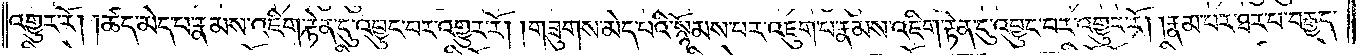འགྱུར་རོ། །ཚད་མེད་པ་རྣམས་འཇིག་རྟེན་དུ་འབྱུང་བར་འགྱུར་རོ། །གཟུགས་མེད་པའི་སྙོམས་པར་འཇུག་བ་རྣམས་འཇིག་རྟེན་དུ་འབྱུང་བར་འགྱུར་རོ། རྣམ་པར་ཐར་པ་བརྒྱད་
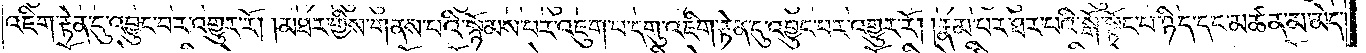འཇིག་རྟེན་དུ་འབྱུང་བར་འགྱུར་རོ། །མཐར་གྱིས་གནས་པའི་སྙོམས་པར་འཇུག་བ་དགུ་འཇིག་རྟེན་དུ་འབྱུང་བར་འགྱུར་རོ། །རྣམ་པར་ཐར་བའི་སྒོ་སྟོང་བ་ཉིད་དང་མཚན་མ་མེད་
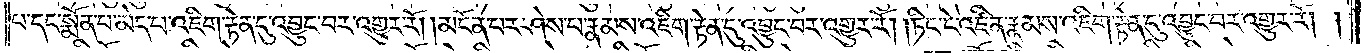པ་དང་སྨོན་པ་མེད་པ་འཇིག་རྟེན་དུ་འབྱུང་བར་འགྱུར་རོ། །མངོན་པར་ཤེས་པ་རྣམས་འཇིག་རྟེན་དུ་འབྱུང་བར་འགྱུར་རོ། །ཏིང་ངེ་འཛིན་རྣམས་འཇིག་རྟེན་དུ་འབྱུང་བར་འགྱུར་རོ། །
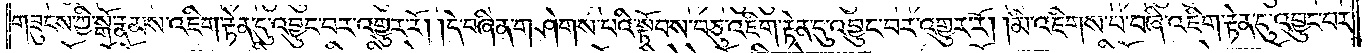གཟུངས་ཀྱི་སྒོ་རྣམས་འཇིག་རྟེན་དུ་འབྱུང་བར་འགྱུར་རོ། །དེ་བཞིན་གཤེགས་བའི་སྟོབས་བཅུ་འཇིག་རྟེན་དུ་འབྱུང་བར་འགྱུར་རོ། །མི་འཇིགས་པ་བཞི་འཇིག་རྟེན་དུ་འབྱུང་བར་
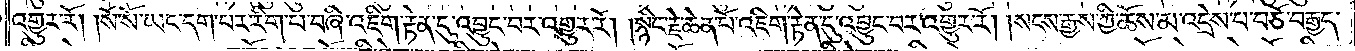འགྱུར་རོ། །སོ་སོ་ཡང་དག་པར་རིག་པ་བཞི་འཇིག་རྟེན་དུ་འབྱུང་བར་འགྱུར་རོ། །སྙིང་རྗེ་ཆེན་པོ་འཇིག་རྟེན་དུ་འབྱུང་བར་འགྱུར་རོ། སངས་རྒྱས་ཀྱི་ཆོས་མ་འདྲེས་པ་བཅོ་བརྒྱད་
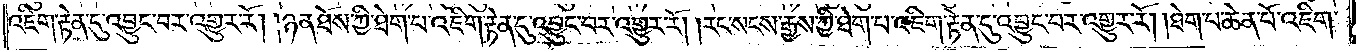འཇིག་རྟེན་དུ་འབྱུང་བར་འགྱུར་རོ། །ཉན་ཐོས་ཀྱི་ཐེག་པ་འཇིག་རྟེན་དུ་འབྱུང་བར་འགྱུར་རོ། །རང་སངས་རྒྱས་ཀྱི་ཐེག་པ་འཇིག་རྟེན་དུ་འབྱུང་བར་འགྱུར་རོ། །ཐེག་པ་ཆེན་པོ་འཇིག་
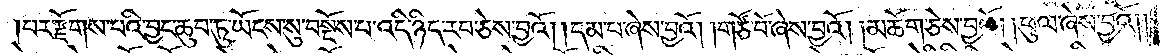པར་རྫོགས་པའི་བྱང་ཆུབ་ཏུ་ཡོངས་སུ་བསྔོས་པ་འདི་ཉིད་རབ་ཅེས་བྱའོ། །དམ་པ་ཞེས་བྱའོ། །གཙོ་བོ་ཞེས་བྱའོ། །མཆོག་ཅེས་བྱའོ། །ཕུལ་ཞེས་བྱའོ། །
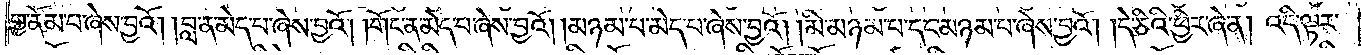གྱ་ནོམ་པ་ཞེས་བྱའོ། །བླ་ན་མེད་པ་ཞེས་བྱའོ། །གོང་ན་མེད་པ་ཞེས་བྱའོ། །མཉམ་པ་མེད་པ་ཞེས་བྱའོ། །མི་མཉམ་པ་དང་མཉམ་པ་ཞེས་བྱའོ། །དེ་ཅིའི་ཕྱིར་ཞེ་ན། འདི་ལྟར་
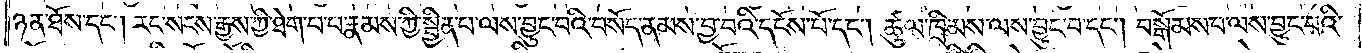ཉན་ཐོས་དང༌། རང་སངས་རྒྱས་ཀྱི་ཐེག་པ་པ་རྣམས་ཀྱི་སྦྱིན་པ་ལས་བྱུང་བའི་བསོད་ནམས་བྱ་བའི་དངོས་པོ་དང༌། ཚུལ་ཁྲིམས་ལས་བྱུང་བ་དང༌། བསྒོམས་བ་ལས་བྱུང་བའི་
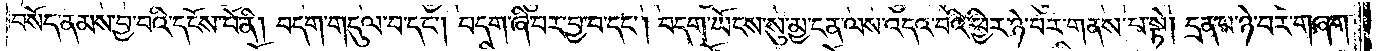བསོད་ནམས་བྱ་བའི་དངོས་པོ་ནི། བདག་གདུལ་བ་དང༌། བདག་ཞི་བར་བྱ་བ་དང༌། བདག་ཡོངས་སུ་མྱ་ངན་ལས་འདའ་བའི་ཕྱིར་ཉེ་བར་གནས་པ་སྟེ། དྲན་པ་ཉེ་བར་གཞག་
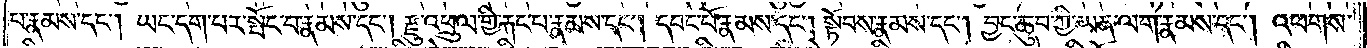པ་རྣམས་དང༌། ཡང་དག་པར་སྤོང་བ་རྣམས་དང༌། རྫུ་འཕྲུལ་གྱི་རྐང་པ་རྣམས་དང༌། དབང་པོ་རྣམས་དང༌། སྟོབས་རྣམས་དང༌། བྱང་ཆུབ་ཀྱི་ཡན་ལག་རྣམས་དང༌། འཕགས་
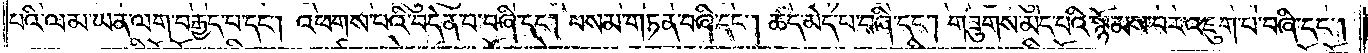པའི་ལམ་ཡན་ལག་བརྒྱད་པ་དང༌། འཕགས་པའི་བདེན་པ་བཞི་དང༌། བསམ་གཏན་བཞི་དང༌། ཚད་མེད་པ་བཞི་དང༌། གཟུགས་མེད་པའི་སྙོམས་པར་འཇུག་པ་བཞི་དང༌།
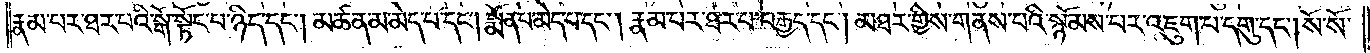རྣམ་པར་ཐར་པའི་སྒོ་སྟོང་པ་ཉིད་དང༌། མཚན་མ་མེད་པ་དང༌། སྨོན་པ་མེད་པ་དང༌། རྣམ་པར་ཐར་བ་བརྒྱད་དང༌། མཐར་གྱིས་གནས་པའི་སྙོམས་པར་འཇུག་པ་དགུ་དང༌། སོ་སོ་
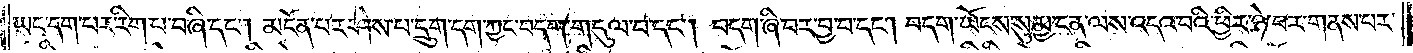ཡང་དག་པར་རིག་པ་བཞི་དང༌། མངོན་པར་ཤེས་པ་དྲུག་དག་ཀྱང་བདག་གདུལ་བ་དང༌། བདག་ཞི་བར་བྱ་བ་དང༌། བདག་ཡོངས་སུ་མྱ་ངན་ལས་འདའ་བའི་ཕྱིར་ཉེ་བར་གནས་པར་
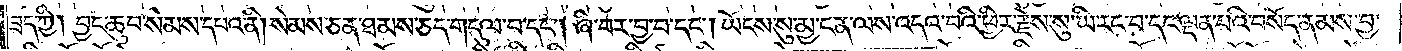ཟད་ཀྱི། བྱང་ཆུབ་སེམས་དཔའ་ནི་སེམས་ཅན་ཐམས་ཅད་གདུལ་བ་དང༌། ཞི་བར་བྱ་བ་དང༌། ཡོངས་སུ་མྱ་ངན་ལས་འདའ་བའི་ཕྱིར་རྗེས་སུ་ཡི་རང་བ་དང་ལྡན་པའི་བསོད་ནམས་བྱ་
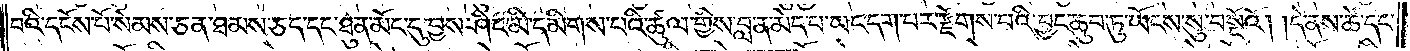བའི་དངོས་པོ་སེམས་ཅན་ཐམས་ཅད་དང་ཐུན་མོང་དུ་བྱས་ཤིང་མི་དམིགས་པའི་ཚུལ་གྱིས་བླ་ན་མེད་པ་ཡང་དག་པར་རྫོགས་བའི་བྱང་ཆུབ་ཏུ་ཡོངས་སུ་བསྔོའོ། །དེ་ནས་ཚེ་དང་
